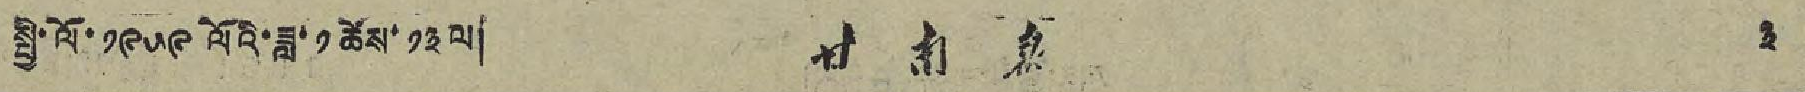སྤྱི་ལོ་ ༡༩༥༩ ལོའི་ཟླ་ ༡ ཚེས་ ༡༣ ལ། 甘 南 報 ༣
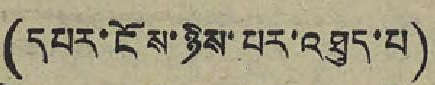(དཔར་ངོས་ཉིས་པར་འཐུད་པ)
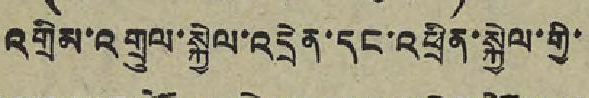འགྲིམ་འགྲུལ་སྐྱེལ་འདྲེན་དང་འཕྲིན་སྐྱེལ་གྱི་
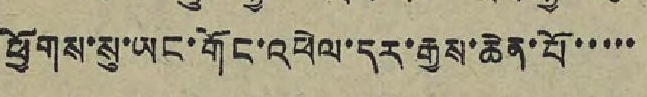ཕྱོགས་སུ་ཡང་གོང་འཕེལ་དར་རྒྱས་ཆེན་པོ་་་་་
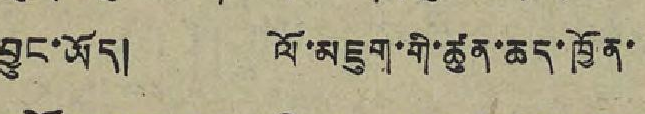བྱུང་ཡོད། ལོ་མཇུག་གི་ཚུན་ཆད་ཁྱོན་
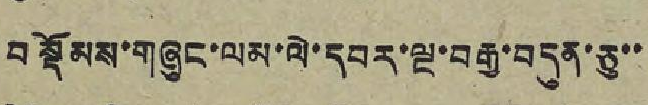བསྡོམས་གཞུང་ལམ་ལེ་དབར་ལྔ་བརྒྱ་བདུན་ཅུ་་
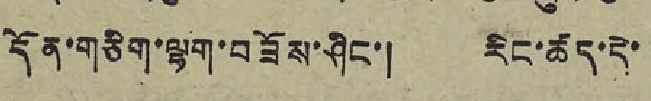དོན་གཅིག་ལྷག་བཟོས་ཤིང་། རིང་ཚད་དེ་
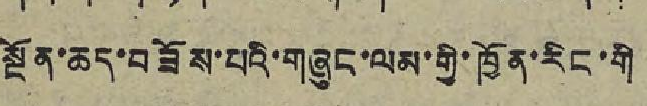སྔོན་ཆད་བཟོས་པའི་གཞུང་ལམ་གྱི་ཁྱོན་རིང་གི
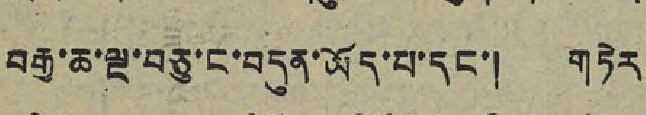བརྒྱ་ཆ་ལྔ་བཅུ་ང་བདུན་ཡོད་པ་དང་། གཏེར
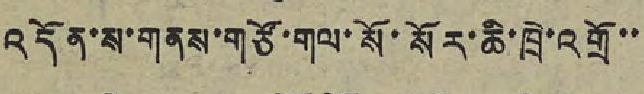འདོན་ས་གནས་གཙོ་གལ་སོ་སོར་ཆི་ཁྲེ་འགྲོ་་
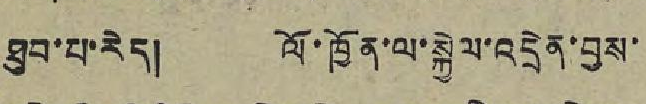ཐུབ་པ་རེད། ལོ་ཁྱོན་ལ་སྐྱེལ་འདྲེན་བྱས་
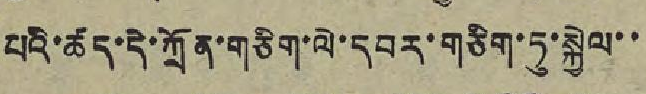པའི་ཚད་དེ་ཀྲོན་གཅིག་ལེ་དབར་གཅིག་ཏུ་སྐྱེལ་་
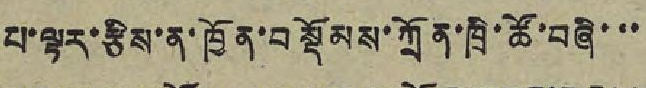པ་ལྟར་རྩིས་ན་ཁྱོན་བསྡོམས་ཀྲོན་ཁྲི་ཚོ་བཞི་་་
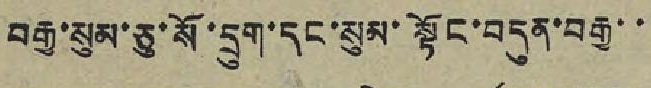བརྒྱ་སུམ་ཅུ་སོ་དྲུག་དང་སུམ་སྟོང་བདུན་བརྒྱ་་
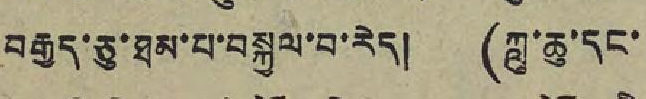བརྒྱད་ཅུ་ཐམ་པ་བསྐྱལ་བ་རེད། (ཀླུ་ཆུ་དང་
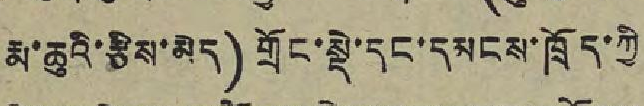རྨ་ཆུའི་རྩིས་མེད) གྲོང་སྡེ་དང་དམངས་ཁྲོད་ཀྱི
